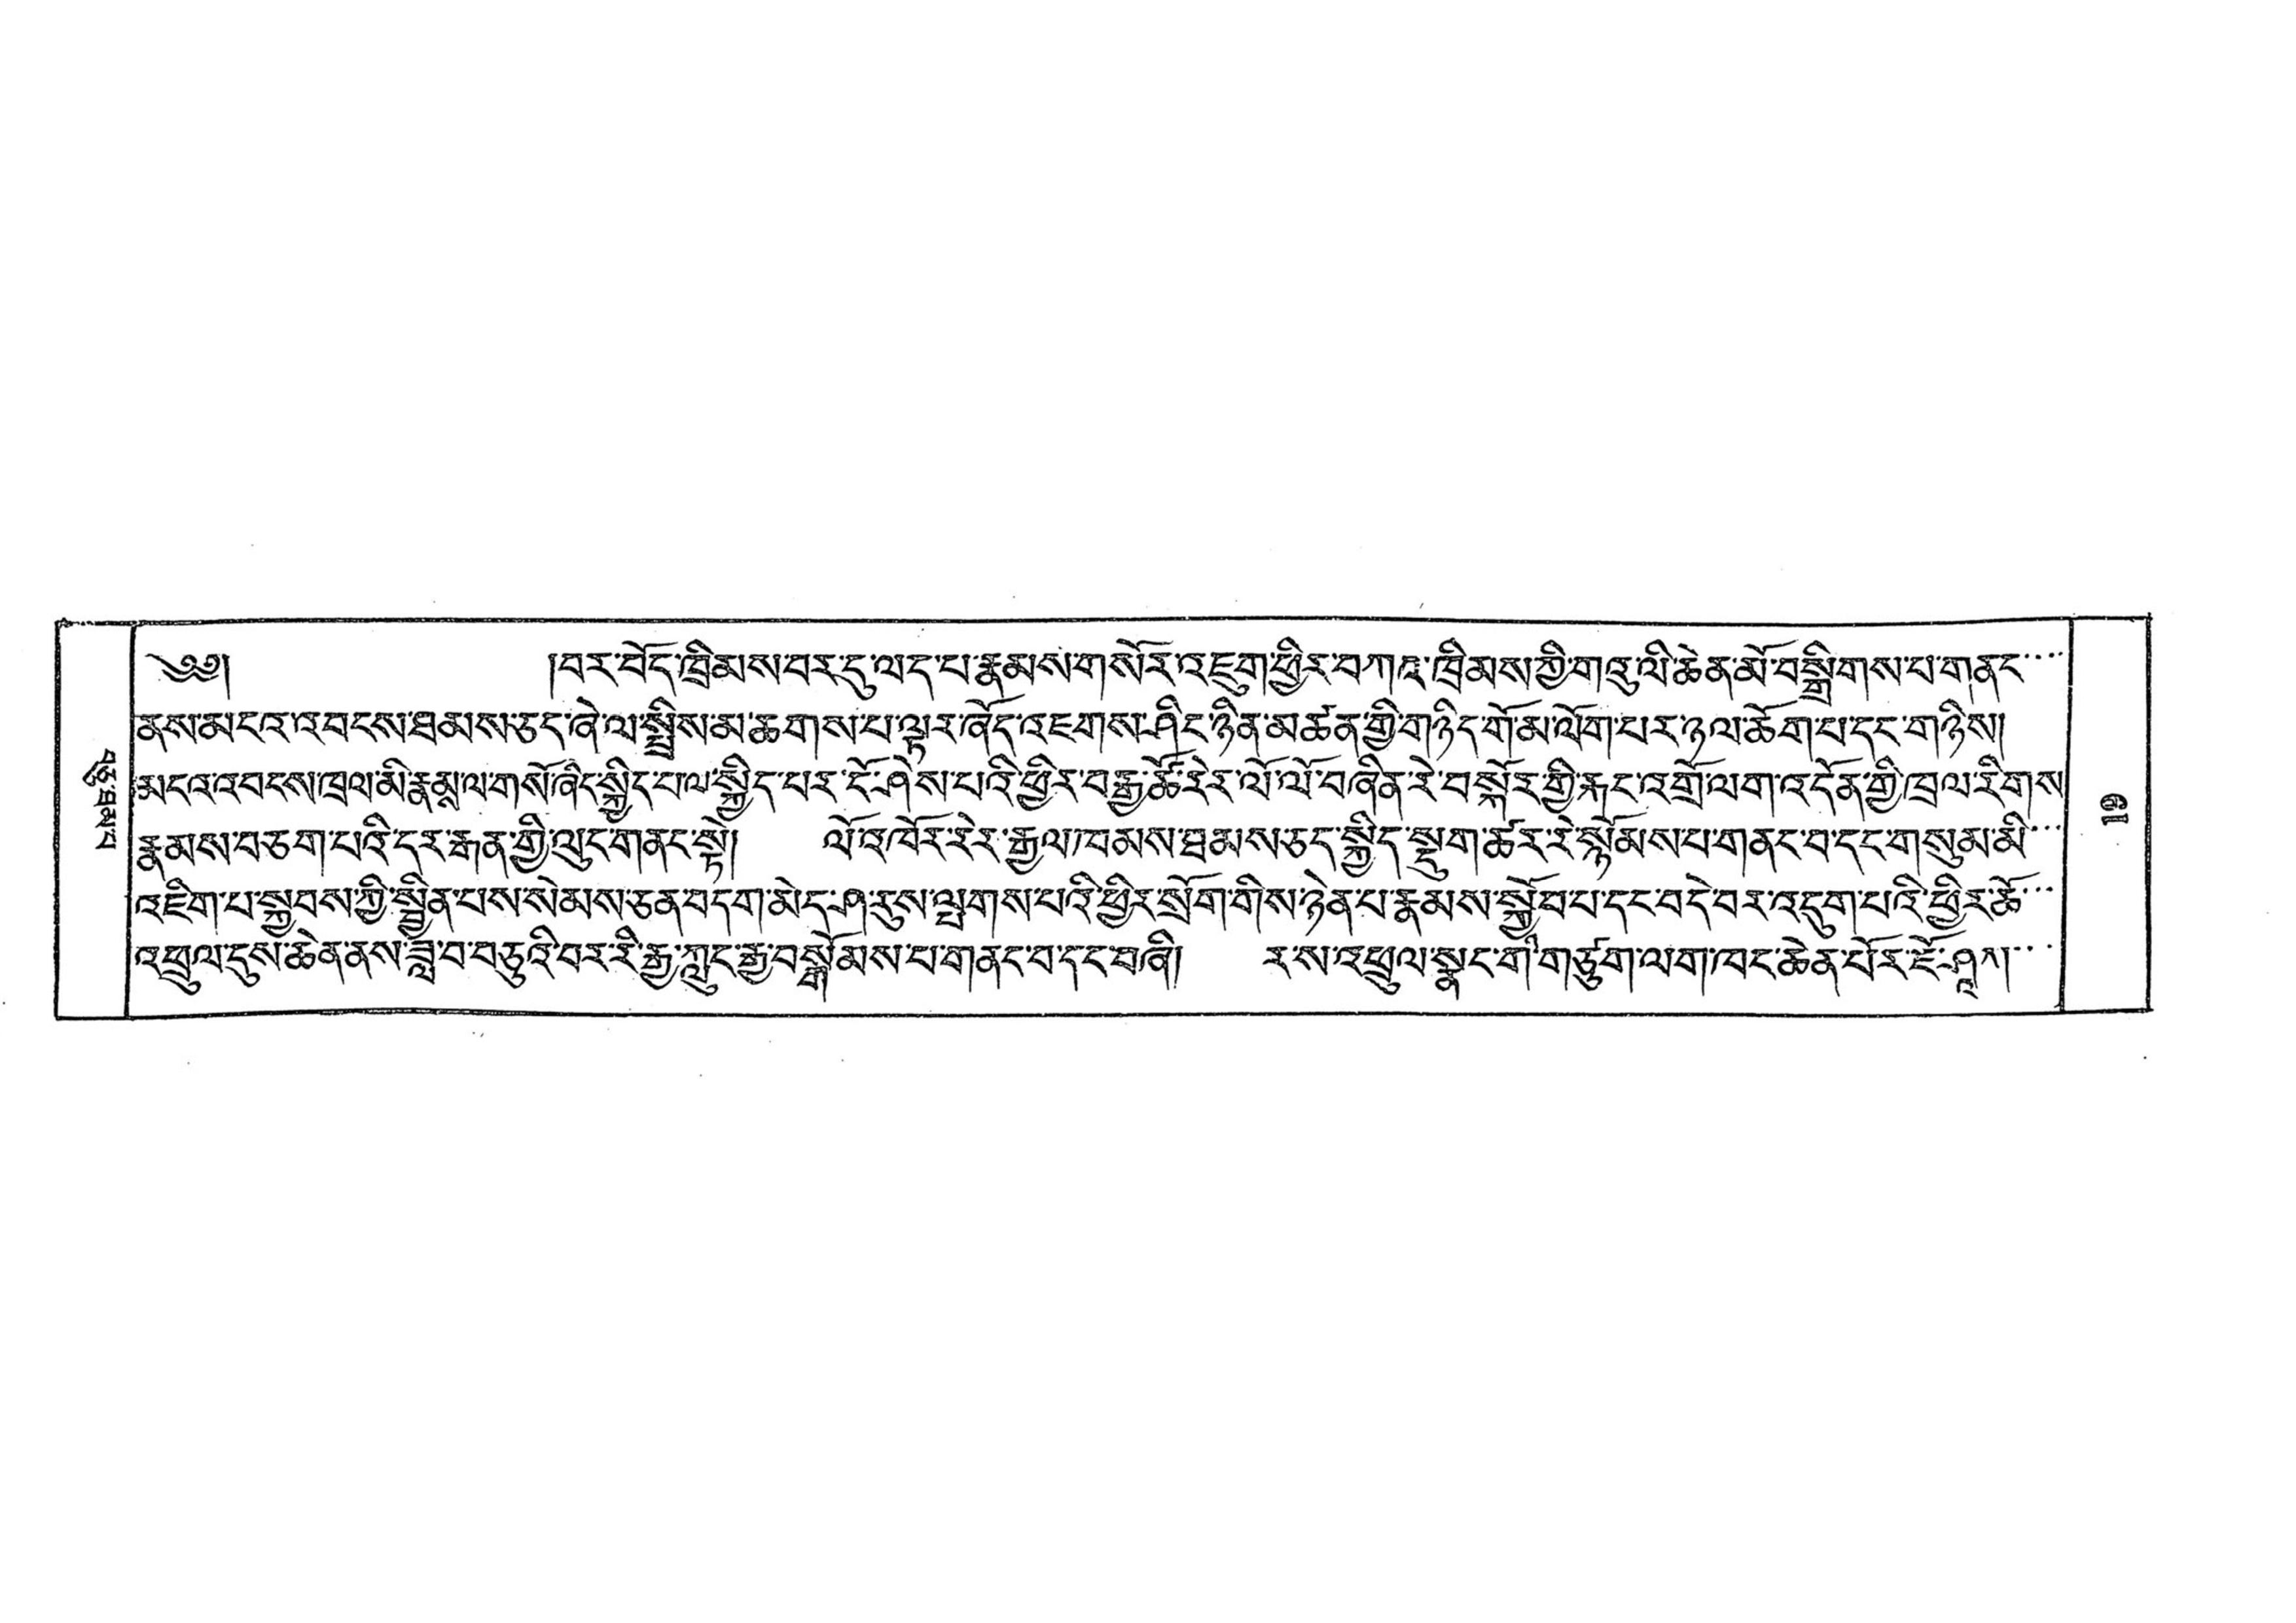བཅུ་ཐམ་པ
བར་བོད་ཁྲིམས་བར་དུ་ལད་པ་རྣམས་གསོརའཇུག་ཕྱིར་བཀའ་ཁྲིམས་ཀྱི་གའུ་ལི་ཆན་མོ་བསྒྲིགས་པ་གནང་་་་
ནས་མངའ་འབངས་ཐམས་ཅད་ཞེ་ལ་སྤྲིས་མ་ཆགས་པ་ལྟར་ཞོད་འཇགས་ཤིང་ཉིན་མཚན་གྱི་གཉིད་གོ་མ་ལོག་པར་ཉལ་ཆོག་པ་དང་གཉིས།
མངའ་འབངས་ཁྲལ་མི་རྣམས་ལ་གསོ་ཞིང་སྐྱིད་པར་སྐྱིད་པར་ངོ་ཤེས་པའི་ཕྱིར་བརྒྱ་ཚོ་རེར་ལོ་ལོ་བཞིན་རེ་བསྐོར་གྱི་རྐང་འགྲོ་ལག་འདོན་གྱི་ཁྲལ་རིགས་
རྣམས་བཅག་པའི་དར་རྒན་གྱི་ལུང་གནང་སྟེ། ལོ་འཁོར་རེར་རྒྱལ་ཁམས་ཐམས་ཅད་སྐྱིད་སྡུག་ཚར་རེ་སྙོམས་པ་གནང་བ་དང་གསུམ་མི་་་
འཇིག་པ་སྐྱབས་ཀྱི་སྦྱིན་པས་སེམས་ཅན་བདག་མེད་ཤ་རུས་ལྤགས་པའི་ཕྱིར་སྲོག་གིས་ཉེན་པ་རྣམས་སྐྱོབ་པ་དང་བདེ་བར་འདུག་པའི་ཕྱིར་ཆོ་་་
འཕྲུལ་དུས་ཆེན་ནས་ཟླ་བ་བཅུའི་བར་རི་རྒྱ་ཀླུང་རྒྱ་བསྒོམས་པ་གནང་བ་དང་བཞི། ར་ས་འཕྲུལ་སྣང་གི་གཙུག་ལག་ཁང་ཆེན་པོར་ཇོ་ཤཱཀ་་་
